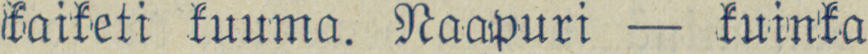kaiketi kuuma. Naapuri — kuinka
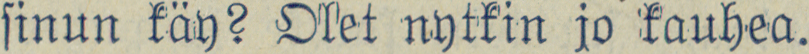sinun käy? Olet nytkin jo kauhea.
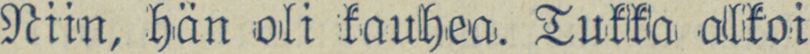Niin, hän oli kauhea. Tukka alkoi
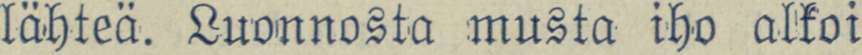lähteä. Luonnosta musta iho alkoi
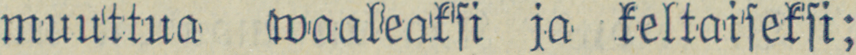muuttua waaleaksi ja keltaiseksi;
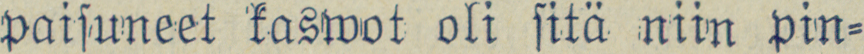paisuneet kaswot oli sitä niin pin-
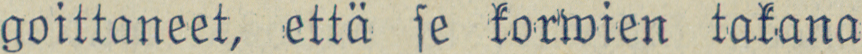goittaneet, että se korwien takana
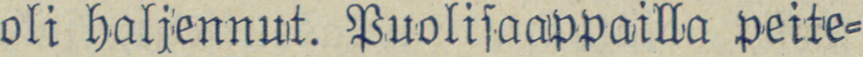oli haljennut. Puolisaappailla peite-
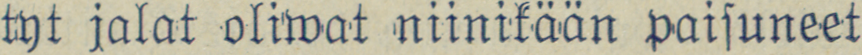tyt jalat oliwat niinikään paisuneet
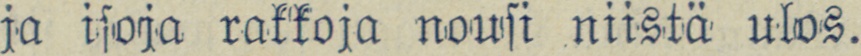ja isoja rakkoja nousi niistä ulos.
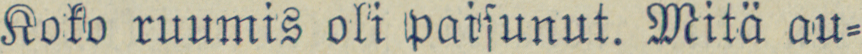Koko ruumis oli paisunut. Mitä au-
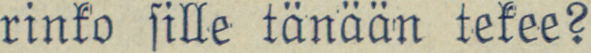rinko sille tänään tekee?
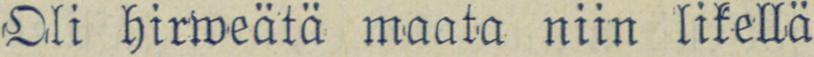Oli hirweätä maata niin likellä
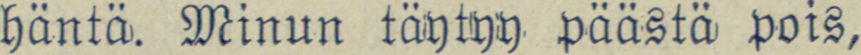häntä. Minun täytyy päästä pois,
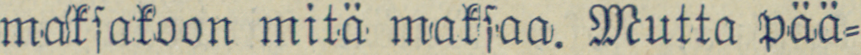maksakoon mitä maksaa. Mutta pää-
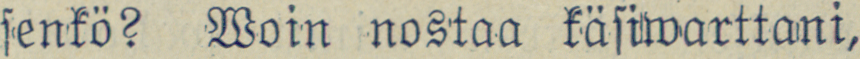senkö? Woin nostaa käsiwarttani,
